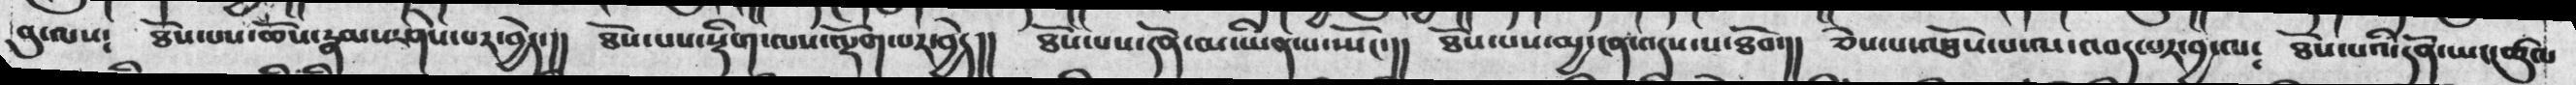བུ་ལས༴ ཐོས་པས་ཆོས་རྣམས་ཤེས་པར་བྱེད་།། ཐོས་པས་སྡིག་ལས་ལྡོག་པར་བྱེད།། ཐོས་པས་དོན་མ་ཡིན་པ་ཡོང་།། ཐོས་པས་མྱ་ངན་འདས་པ་ཐོབ་།། ཅེས་པ་འཐོས་པ་ལ་འབད་པར་བྱ་ལ༴ ཐོས་པའི་དོན་ཡང་ཚུལ
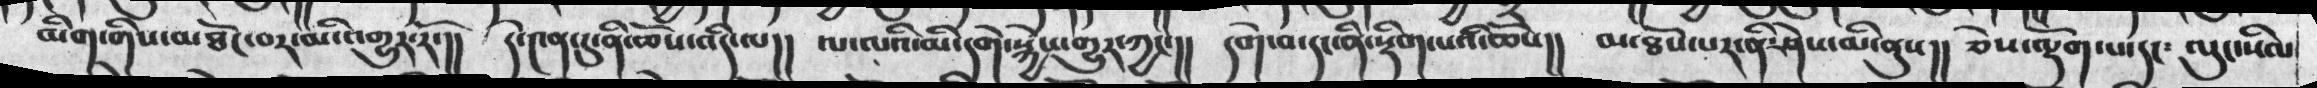མིག་གིས་མཐོང་བར་མི་འགྱུར་རོ་།། དེ་༤ན་དུ་ནི་ཆོས་འདི་ལ།། ལ་ལའི་མི་དགེ་སྐྱེས་གྱུར་ཀྱང་།། དགེ་བ་དང་ནི་སྡིག་པའི་ཆོས།། མ་ཐོས་པར་ནི་ཤེས་མི་ནུས།། ཅེས་ལྡོག་པ་དང༴ ལུང་སིལ
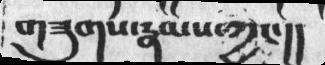གཟུགས་རྣམས་ཀྱང་།།
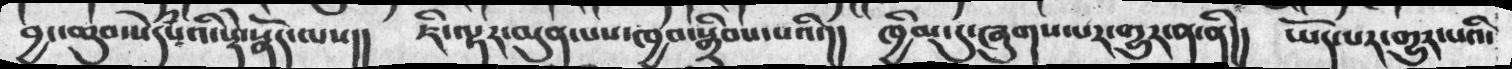བྱང་ཆུབ་སེཾདཔའི་སྡེ་སྣོད་ལས།།  ཇི་ལྟར་མུན་པས་ཁྱབ་སྒྲིབས་པའི་།།  ཁྱིམ་དུ་ཞུགས་པར་གྱུར་ན་ནི།།  ཡོད་པར་གྱུར་པའི་
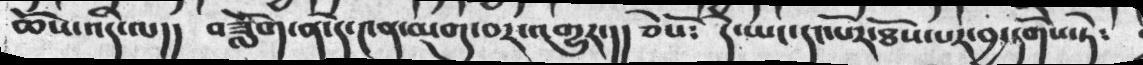ཆོས་འདི་ལ།།  བཟློག་ན་དེ་༤ན་མགུ་བར་འགྱུར་།། ཅེསོ༴ དེ་ཡང་དང་པོར་ཐོས་པར་བྱ་དགོས་ཏེ༴
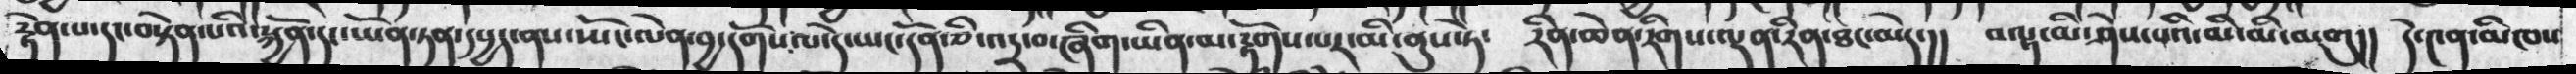རྟེན་པ་དང་བསྟེན་པའི་སྐྱོན་དང་ཡོན་ཏན་དཔྱད་ནས་སྤོང་ལེན་བྱ་དགོས་ལ་དེ་ཡང་དོན་ཅི་འདྲ་བ་ཞིག་ཡིན་མ་རྟོགས་པར་མི་ནུས་ཏེ༴  རིན་ཆེན་རིགས་ལྡན་རིན་ཐང་མེད་།།  བལྟ་མི་ཤེས་པའི་མི་མི་མགུ།།  དེ་༤ན་མིཁས
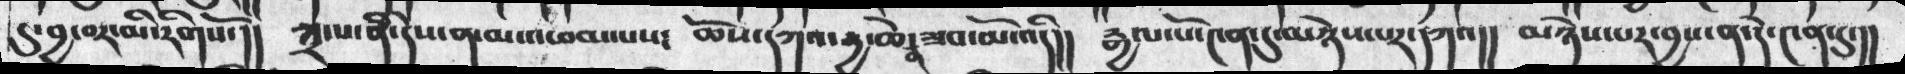དུ་བྱ་བར་མོ་རིགསཔ་།།   ༣་པ་ནོ་དེས་ན་མ་འཕམ་པས་   ཆོས་དཀའ་དྱ་ཆེན་ཟབ་མོ་འདི་།།   རྒྱལ་པོ་༤ན་དུ་མཉེས་པར་དཀའ།།་ མཉེས་པར་བྱས་ན་དེ་༤ན་དུ་།།
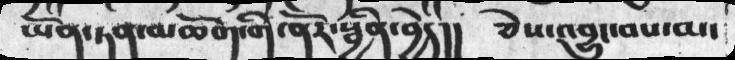ཡོན་ཏན་མཆོག་གི་ནོར་སྦྱིན་བྱེད།། ཅེས་འབྱུང་བས་མ་
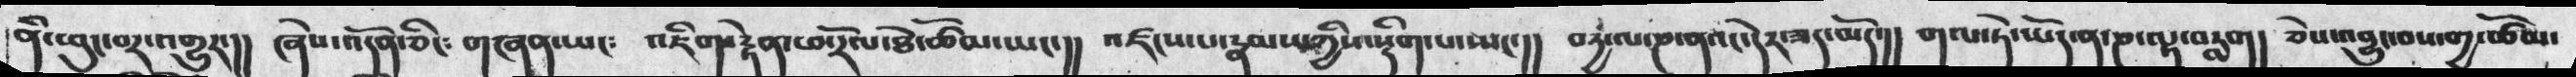ནི་ཕུང་བར་འགྱུར་།། ཞེས་འདོན་ཅིང༴ གཞན་ཡང༴ འཇིག་རྟེན་ཕ་རོལ་ཐེ་ཚོམ་ཡང་།། འཛངས་པ་རྣམས་ཀྱིས་སྡིག་པ་ཡང་།། བརྱ་ལ་ཎ་ནའང་དེར་ཟད་མོད་།། གལ་ཏེ་ཡོད་ན་ཎ་ལྟ་བརླག། ཅེས་འབྱུང་བས་གྱ་ཚོམ་
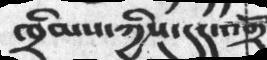ཁྲིམས་ཀྱི་དུད་འགྲོ
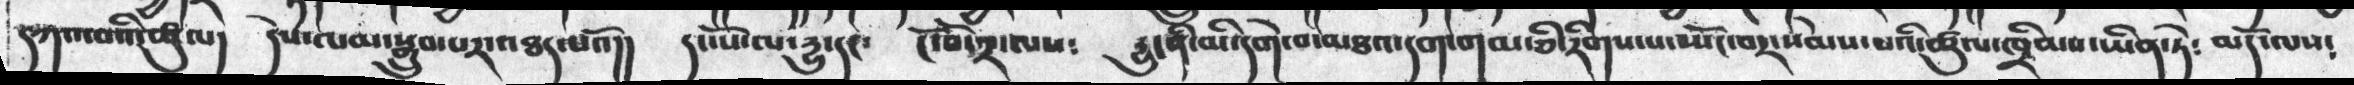དཀའ་བའི་ཚུལ།  དེས་ལམ་སྒྲུབ་པར་ཐད་པའོ།།  དང་པོ་ལ་རྱུ་དང༴  ངོ་བོ་༢་ལས༴  རྱུ་ནི་མི་དགེ་བ་མཐའ་དག་གམ་ཅི་རིགས་པ་ཡོང་བར་སེམས་པའི་ཚུལ་ཁྲིམས་ཡིན་ཏེ༴ མདོ་ལས༴
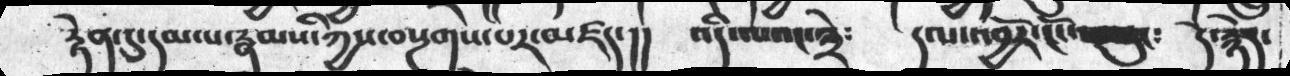རྟེན་དུ་དམ་པ་རྣམས་ཀྱིས་བསྔགས་པར་མཛད་།།   འདི་ལའང་༣ེ༴    དལ་འབྱོར་ངོས་བཟུང༴    དེ་རྙེད་
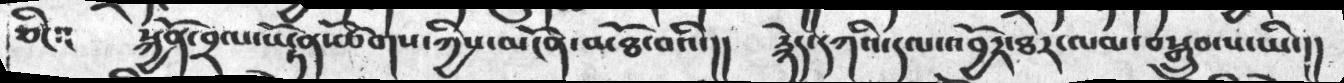ཅིང༴ སྐྱོན་བྲལ་ཡྟོན་ཚོགས་ཀྱིས་མངོན་མཐོང་བའི་།། རྙེད་དཀའི་དལ་འབྱོར་ཐར་ལམ་བསྒྲུབ་པ་ཡི་།།
